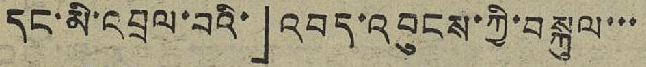དང་མི་འབྲལ་བའི་」འབད་བབུངས་ཀྱི་བསྐུལ་་་
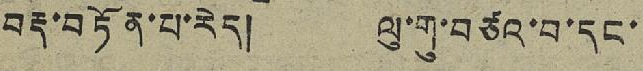བརྡ་བཏོན་པ་རེད། ལུ་གུ་བཙའ་བ་དང་
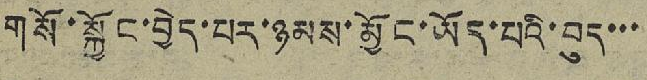གསོ་སྐྱོང་བྱེད་པར་ཉམས་མྱོང་ཡོད་པའི་བུད་་་
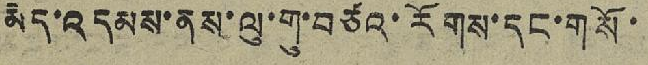མེད་འདམས་ནས་ལུ་གུ་བཙའ་རོགས་དང་གསོ་
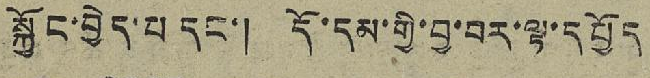སྐྱོང་བྱེད་པ་དང་། དོ་དམ་གྱི་བྱ་བར་ལྟ་དཔྱོད
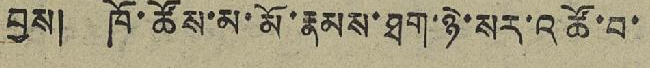བྱས། ཁོ་ཚོས་མ་མོ་རྣམས་ཐག་ཉེ་སར་འཚོ་བ་
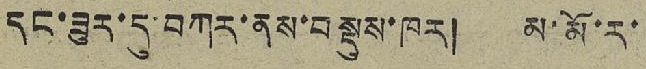དང་ཟུར་དུ་བཀར་ནས་བསྡུས་ཁར། མ་མོ་ར་
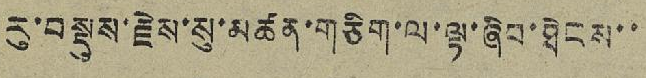རུ་བསྡུས་རྗེས་སུ་མཚན་གཅིག་ལ་ལྟ་ཞིབ་ཐེངས་་
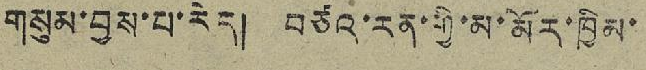གསུམ་བྱས་པ་རེད། བཙའ་རན་གྱི་མ་མོར་ཁྱིམ་
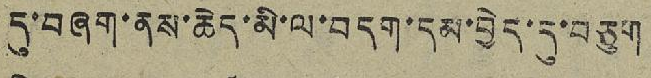དུ་བཞག་ནས་ཆེད་མི་ལ་བདག་དམ་བྱེད་དུ་བཅུག
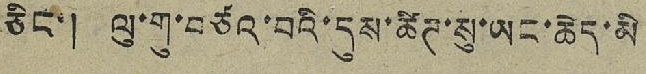ཅིང་། ལུ་གུ་བཙའ་བའི་དུས་ཚིཌ་སུ་ཡང་ཆེད་མི
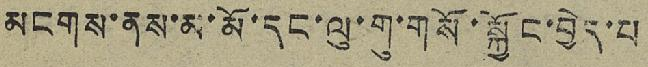མངགས་ནས་མ་མོ་དང་ལུ་གུ་གསོ་སྐྱོང་བྱེད་པ
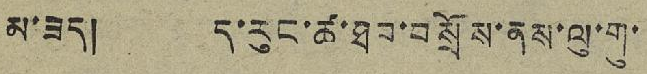མ་ཟད། ད་རུང་ཚ་ཐབ་བསྲོས་ནས་ལུ་གུ་
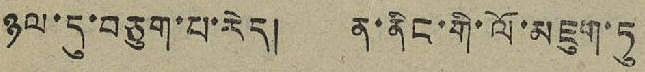ཉལ་དུ་བཅུག་པ་རེད། ན་ནིང་གི་ལོ་མཇུག་ཏུ
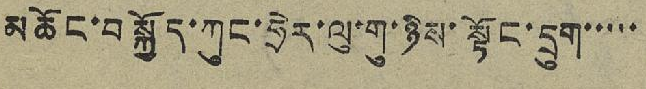མཆོང་བསྐྱོད་ཀུང་ཧྲེར་ལུ་གུ་ཉིས་སྟོང་དུག་་་་་
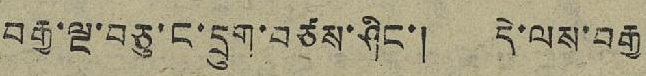བརྒྱ་ལྔ་བཅུ་ང་དྲུག་བཙས་ཤིང་། དེ་ལས་བརྒྱ
